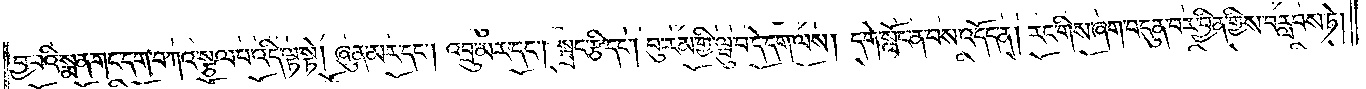བྱ་བའི་སྨན་གང་དག་བཀའ་སྩལ་པ་འདི་ལྟ་སྟེ། ཞུན་མར་དང༌། འབྲུ་མར་དང༌། སྦྲང་རྩི་དང༌། བུ་རམ་གྱི་ལྦུ་བ་དེ་དག་ལས། དགེ་སློང་ན་བས་འདོད་ན། རང་གིས་ཞག་བདུན་པར་བྱིན་གྱིས་བརླབས་ཏེ།
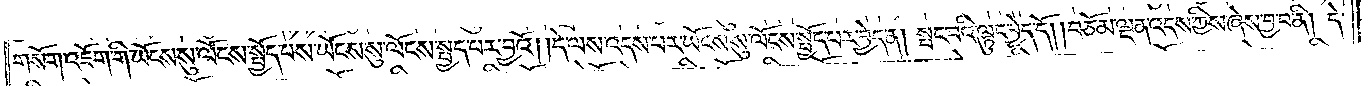གསོག་འཇོག་གི་ཡོངས་སུ་ལོངས་སྤྱོད་པས་ཡོངས་སུ་ལོངས་སྤྱད་པར་བྱའོ། །དེ་ལས་འདས་པར་ཡོངས་སུ་ལོངས་སྤྱོད་པར་བྱེད་ན། སྤང་བའི་ལྟུང་བྱེད་དོ། །བཅོམ་ལྡན་འདས་ཀྱིས་ཞེས་བྱ་བ་ནི། དེ་
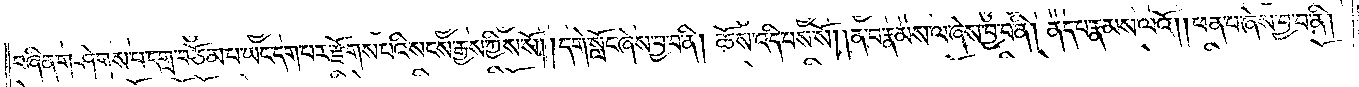བཞིན་གཤེགས་པ་དགྲ་བཅོམ་པ་ཡང་དག་པར་རྫོགས་པའི་སངས་རྒྱས་ཀྱིས་སོ། །དགེ་སློང་ཞེས་བྱ་བ་ནི། ཆོས་འདི་པས་སོ། །ན་བ་རྣམས་ལ་ཞེས་བྱ་བ་ནི། ནད་པ་རྣམས་ལའོ། །ཕན་པ་ཞེས་བྱ་བ་ནི།
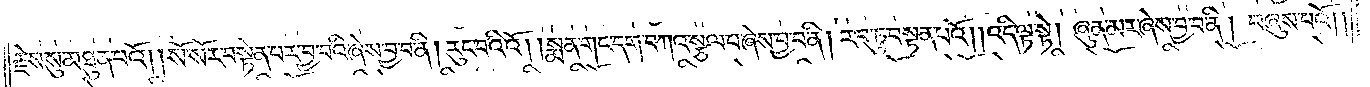རྗེས་སུ་མཐུན་པའོ། །སོ་སོར་བསྟེན་པར་བྱ་བའི་ཞེས་བྱ་བ་ནི། རུང་བའིའོ། །སྨན་གང་དག་བཀའ་སྩལ་པ་ཞེས་བྱ་བ་ནི། རབ་ཏུ་བསྟན་པའོ། །འདི་ལྟ་སྟེ། ཞུན་མར་ཞེས་བྱ་བ་ནི། བཞུས་པའོ༎
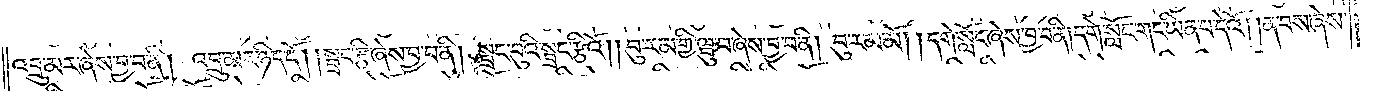འབྲུ་མར་ཞེས་བྱ་བ་ནི། འབྲུ་མར་ཉིད་དོ། །སྦྲང་རྩི་ཞེས་བྱ་བ་ནི། སྦྲང་བུའི་སྦྲང་རྩིའོ། །བུ་རམ་གྱི་ལྦུ་བ་ཞེས་བྱ་བ་ནི། བུ་རམ་མོ། །དགེ་སློང་ཞེས་བྱ་བ་ནི། དགེ་སློང་གང་ཡིན་པ་དེའོ། །ན་བས་ཞེས་
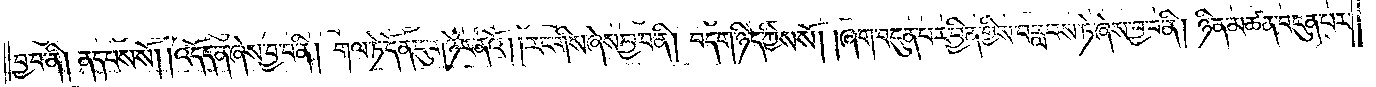བྱ་བ་ནི། ནད་པས་སོ། །འདོད་ན་ཞེས་བྱ་བ་ནི། གལ་ཏེ་དོན་དུ་གཉེར་ནའོ། །རང་གིས་ཞེས་བྱ་བ་ནི། བདག་ཉིད་ཀྱིས་སོ། །ཞག་བདུན་པར་བྱིན་གྱིས་བརླབས་ཏེ་ཞེས་བྱ་བ་ནི། ཉིན་མཚན་བདུན་པར་
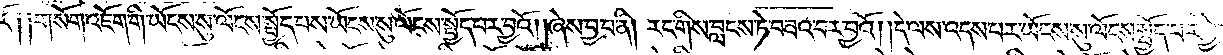རོ༑ ༑གསོག་འཇོག་གི་ཡོངས་སུ་ལོངས་སྤྱོད་པས་ཡོངས་སུ་ལོངས་སྤྱོད་པར་བྱའོ། །ཞེས་བྱ་བ་ནི། རང་གིས་བླངས་ཏེ་བཟའ་བར་བྱའོ། །དེ་ལས་འདས་པར་ཡོངས་སུ་ལོངས་སྤྱོད་པར་བྱེད་ན་ཞེས་བྱ་བ་ནི།
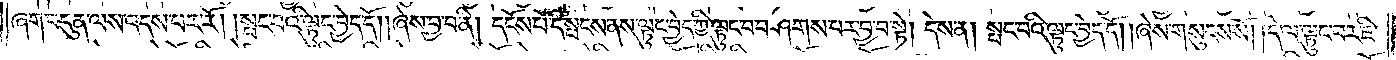ཞག་བདུན་ལས་འདས་པར་རོ། །སྤང་བའི་ལྟུང་བྱེད་དོ། །ཞེས་བྱ་བ་ནི། དངོས་པོ་དེ་སྤངས་ནས་ལྟུང་བྱེད་ཀྱི་ལྟུང་བ་བཤགས་པར་བྱ་བ་སྟེ། དེས་ན། སྤང་བའི་ལྟུང་བྱེད་དོ། །ཞེས་གསུངས་སོ། །དེ་ལ་ལྟུང་བར་ཇི་
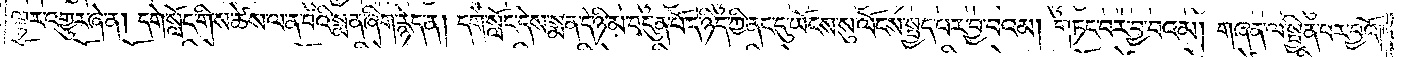ལྟར་འགྱུར་ཞེ་ན། དགེ་སློང་གིས་ཚེས་ལ་ན་བའི་སྨན་ཞིག་རྙེད་ན། དགེ་སློང་དེས་སྨན་དེ་ཉི་མ་བདུན་པོ་དེ་ཉིད་ཀྱི་ནང་དུ་ཡོངས་སུ་ལོངས་སྤྱད་པར་བྱ་བའམ། གཏང་བར་བྱ་བའམ། གཞན་ལ་སྦྱིན་པར་བྱའོ། །
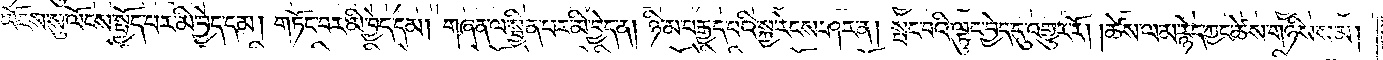ཡོངས་སུ་ལོངས་སྤྱོད་པར་མི་བྱེད་དམ། གཏོང་བར་མི་བྱེད་དམ། གཞན་ལ་སྦྱིན་པར་མི་བྱེད་ན། ཉི་མ་བརྒྱད་པའི་སྐྱ་རེངས་ཤར་ན། སྤང་བའི་ལྟུང་བྱེད་དུ་འགྱུར་རོ། །ཚེས་ལ་མ་རྙེད་ཀྱང་ཚེས་གཉིས་སམ།
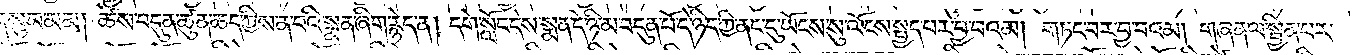གསུམ་མམ། ཚེས་བདུན་ཚུན་ཆད་ཀྱིས་ན་བའི་སྨན་ཞིག་རྙེད་ན། དགེ་སློང་དེས་སྨན་དེ་ཉི་མ་བདུན་པོ་དེ་ཉིད་ཀྱི་ནང་དུ་ཡོངས་སུ་ལོངས་སྤྱད་པར་བྱ་བའམ། གཏང་བར་བྱ་བའམ། གཞན་ལ་སྦྱིན་པར་
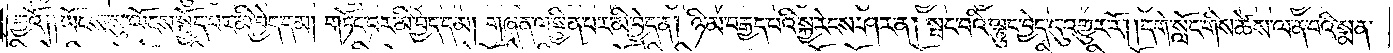བྱའོ༑ ༑ཡོངས་སུ་ལོངས་སྤྱོད་པར་མི་བྱེད་དམ། གཏོང་བར་མི་བྱེད་དམ། གཞན་ལ་སྦྱིན་པར་མི་བྱེད་ན། ཉི་མ་བརྒྱད་པའི་སྐྱ་རེངས་ཤར་ན། སྤང་བའི་ལྟུང་བྱེད་དུ་འགྱུར་རོ། །དགེ་སློང་གིས་ཚེས་ལ་ན་བའི་སྨན་
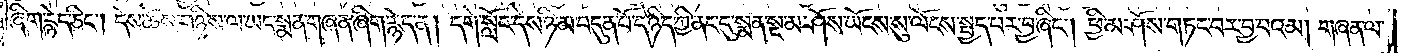ཞིག་རྙེད་ཅིང༌། དེས་ཚེས་གཉིས་ལ་ཡང་སྨན་གཞན་ཞིག་རྙེད་ན། དགེ་སློང་དེས་ཉི་མ་བདུན་པོ་དེ་ཉིད་ཀྱི་ནང་དུ་སྨན་སྔ་མ་ཤོས་ཡོངས་སུ་ལོངས་སྤྱད་པར་བྱ་ཞིང༌། ཕྱི་མ་ཤོས་གཏང་བར་བྱ་བའམ། གཞན་ལ་
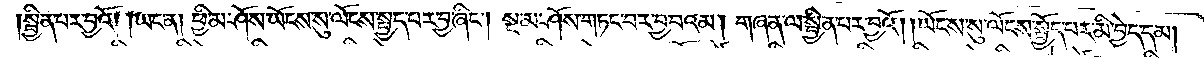སྦྱིན་པར་བྱའོ། །ཡང་ན། ཕྱི་མ་ཤོས་ཡོངས་སུ་ལོངས་སྤྱད་པར་བྱ་ཞིང༌། སྔ་མ་ཤོས་གཏང་བར་བྱ་བའམ། གཞན་ལ་སྦྱིན་པར་བྱའོ། །ཡོངས་སུ་ལོངས་སྤྱོད་པར་མི་བྱེད་དམ།
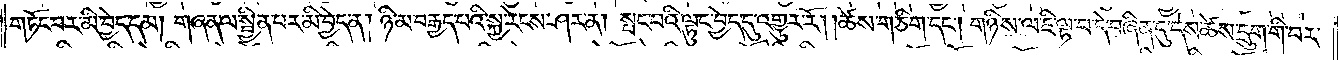གཏོང་བར་མི་བྱེད་དམ། གཞན་ལ་སྦྱིན་པར་མི་བྱེད་ན། ཉི་མ་བརྒྱད་པའི་སྐྱ་རེངས་ཤར་ན། སྤང་བའི་ལྟུང་བྱེད་དུ་འགྱུར་རོ། །ཚེས་གཅིག་དང༌། གཉིས་ལ་ཇི་ལྟ་བ་དེ་བཞིན་དུ་དེས་ཚེས་དྲུག་གི་བར་
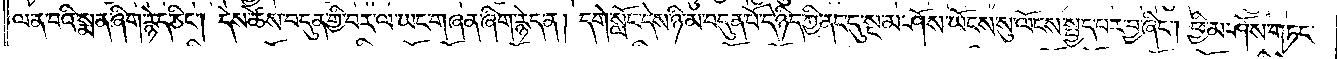ལ་ན་བའི་སྨན་ཞིག་རྙེད་ཅིང༌། དེས་ཚེས་བདུན་གྱི་བར་ལ་ཡང་གཞན་ཞིག་རྙེད་ན། དགེ་སློང་དེས་ཉི་མ་བདུན་པོ་དེ་ཉིད་ཀྱི་ནང་དུ་སྔ་མ་ཤོས་ཡོངས་སུ་ལོངས་སྤྱད་པར་བྱ་ཞིང༌། ཕྱི་མ་ཤོས་གཏང་
